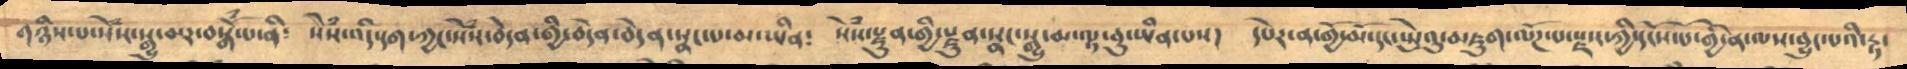གཉིས་པ་སེཾས་སྒྱུ་མར་བསྒོཾ་པ་ནི༴ སེཾས་འདི་དག་ཀྱང་སེཾས་བདེན་གྱི་བདེན་བདེན་སྣང་པ་མ་ཡིན༴ སེཾས་སྫུན་གྱི་སྫུན་སྣང་སྒྱུ་མ་ལྟ་བུ་ཡིན་པས། དཔེར་ན་གྱོ་མོ་དང་སྤེུའུ་མཇུག་ལོཌ་པ་སྫས་ཀྱི་དངོས་པོ་གྱི་ན་ལས་བྱུང་པའི་རྟ་
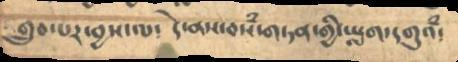གྲུབ་པར་བྱས་ལ༴ དེ་ནས་བསཾ་གཏན་གྱི་ཡླག་དགུའཾ༴
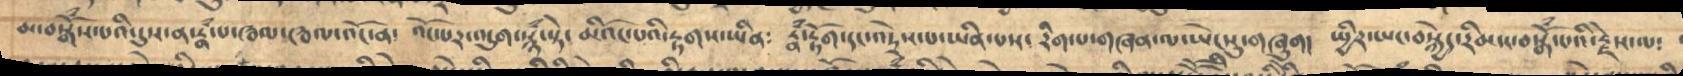མ་བསྒོཾས་པའི་དུས་ན་རྣཾ་པ་ཝལ་ཝལ་འོང་ན༴ འོང་པར་འདུག་སྙཾ་སྟེ་མིའོང་པའི་རྟགས་ཡིན༴ རྣཾ་རྟོག་དང་འདྲེས་པ་ཡིན་པས་རིག་པ་གཞན་ལ་ཡོངསུ་གཞུག། སྤྱིར་ཡང་བསྐྱེད་རིམས་བསྒོཾ་པའི་རྗེས་ལ༴
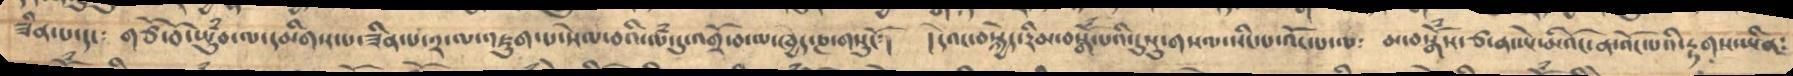ཟིན་པ་དང༴ གཙོ་བོ་ཡུཾབ་ལ་དམིགས་པ་ཟིན་པ་༢་ལ་འཇུག་པ་སེལ་བའི་ལཾ་དུ་འགྲོ་བ་ལ་ཁྱད་ཎ་གསུངོ༴། །དེའང་བསྐྱེད་རིམ་བསྒོཾ་པའི་དུསུ་གསལ་སིང་པ་འོང་པ་ལ༴ མ་བསྒོཾས་ཙ་ན་ཡེ་མིའོང་ན་འོང་པའི་རྟགས་ཡིན༴
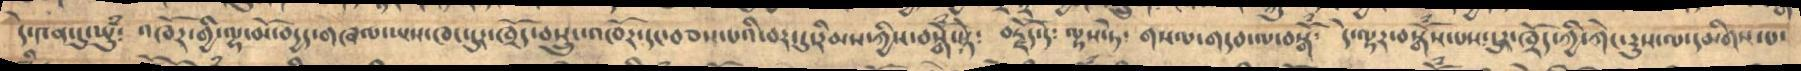དེ་༤ན་དུ་ཡུཾ༴ འཁོར་གྱི་ལྷ་མོ་བདྱད་གཞལ་ཡས་ཁང་དུར་ཁྲོད་བསྲུང་འཁོར་དང་བཅས་པའི་བར་དུ་རིམས་ཀྱིས་བསྒོཾ་སྟེ༴ བརྗོད་དེ༴ ལྟས་ཏེ༴ གསལ་གདབ་ལ་བསྒོཾ༴ དེ་ལྟར་བསྒོཾས་པས་དུར་ཁྲོད་ཀྱི་ཀེང་རུས་ལ་དམིགས་པ་
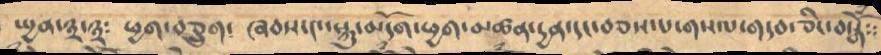སྤྱན་༣་༣༴ ཕྱག་བཅྲུག༴ ཞབས་༤་སྐུ་མདོག་ཕྱག་མཚན་དྱན་དང་བཅས་པ་གསལ་གདབ་ཅིང་བསྒོཾ༴༴
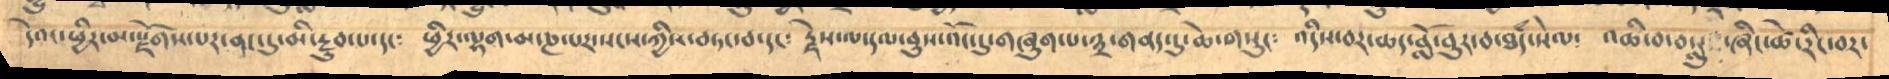དེའང་ཕྱིར་མ་སྫོགས་པར་ནང་དུ་མི་རྔུབ་པ་དང༴ ཕྱིར་ལྷག་མ་ཎ་པར་སངས་ཀྱིས་བཏང་བ་དང༴ རྗེས་ལ་དལ་བུས་འོང་དུ་གཞུག་པ་༣་གནད་དུ་ཆེ་གསུང༴ འདིས་བར་ཆད་བློ་བུར་བ་ཐཾད་སེལ༴ འཆི་བ་བསླུ་ཞིང་ཚེ་རིང་བར་
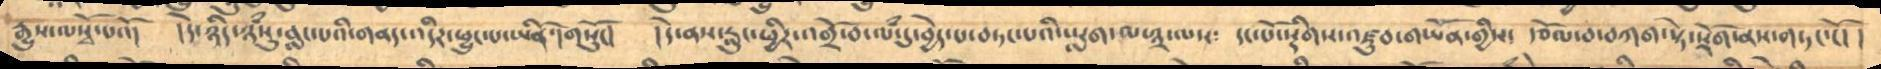རྒྱུས་ལསྭོ་པའོ། །དེ་ཉིད་ཉཾསུ་བླང་པའི་གནད་འདིར་ཕྱུང་པ་ཡིན་དགོསོུང། །དེ་ནས་རླུང་ཕྱིར་འགྲོ་བ་ལཾ་དུ་བྱེད་པ་བཏང་པའི་ཡླག་ལ་༣་ལས༴ དང་པོ་སྡིགས་འཛུབ་གཡོན་གྱིས༴ རྩོལ་བ་བཀག་སྟེ་སྡོག་ནས་གཏང་ངོ། །
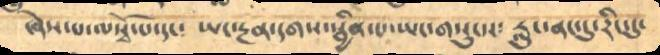ཞེས་པ་ལསྭོ་པ་དང༴ ཡང་རྔན་དགས་སྦྱིན་པ་ཡང་གསུངས༴ རླུང་ནང་དུ་རིང་དུ་
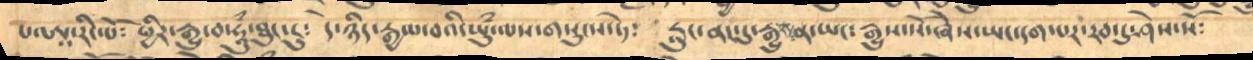པ་ཨཱ་རིང་པོ༴  ཕྱིར་རྒྱུ་བ་ཧཱུཾ་ཐུང་ངུ༴  དེ་ཉིད་རྒྱལ་བའི་ཡུཾ་ལས་གསུངས་ཏེ༴   རླུང་ནང་དུ་རྒྱུས་ན་ཡང༴  རྒྱུས་སོ་ཞེས་ཡང་དག་པར་རབ་དུ་ཤེས་སོ༴
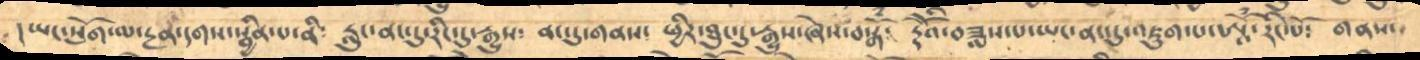།ཡང་སོུག་ལ་རྔན་དགས་སྦྱིན་པ་ནི༴ རླུང་ནང་དུ་རིང་དུ་རྒྱུས༴ ནང་དུ་གནས་ ཕྱིར་ཐུང་དུ་རྒྱུས་ཞེས་བསྒོཾ་ རྡོེའི་བཟླས་པ་ཡང་ནང་དུ་འཇུག་པ་ཨཱོཾ་རིང་པོ༴ གནས་
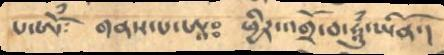པ་ཨོཾ༴ གནས་པ་ཨཱཿ   ཕྱིར་འགྲོ་བ་ཧཱུཾ་ཡིནོ་།
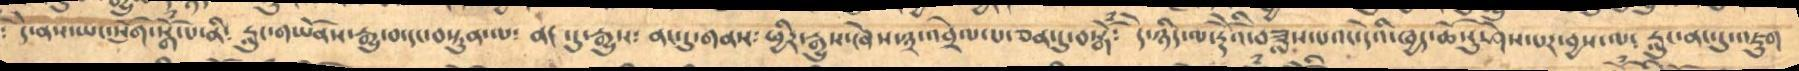དེ་ནས་ཡང་སོུག་སྒོཾ་པ་ནི༴ རླུང་གཡོནས་རྒྱུ་བ་དང་བསྟུན་ལ༴ ནང་དུ་རྒྱུས༴ ནང་དུ་གནས༴ ཕྱིར་རྒྱུས་ཞེས་༣་འབྲེལ་པ་ཅན་དུ་བསྒོཾ༴ དེ་ཉིད་ལ་རྡོེའི་བཟླས་པའང་དེའི་ཁྱད་ཆོསུ་ཤེས་པར་བྱས་ལ༴ རླུང་ནང་དུ་འཇུག
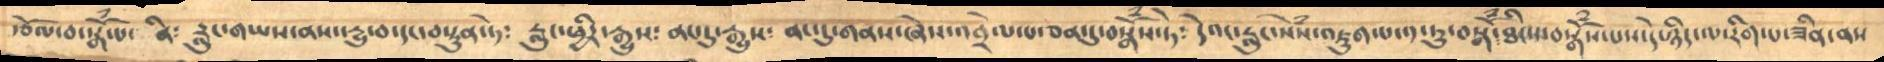རྩོལ་བ་སྒོཾ་པ་ ནི༴ རླུང་གཡས་ནས་རྱུ་བ་དང་བསྟུན་ཏེ༴ རླུང་ཕྱིར་རྒྱུས༴ ནང་དུ་རྒྱུས༴ ནང་དུ་གནས་ཞེས་འབྲེལ་པ་ཅན་དུ་བསྒོཾ་ཏེ༴ དེའང་རླུང་སེཾས་འཇུག་པ་༡་ཏུ་བསྒོཾ་ཐིངས་བསྒོཾས་པས་དེ་ཉིད་ལ་རིག་པ་ཟིན་ནས
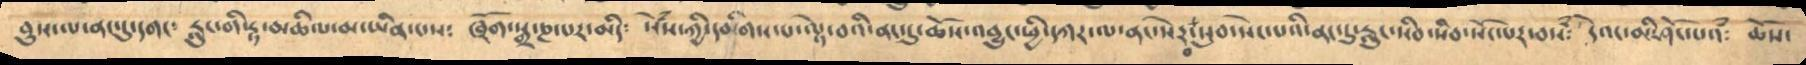བུས་ལ་ནང་དུ་དག༴ རླུང་གི་རྟ་མཆིལ་མ་ཡིན་པས༴ ཁྲོག་སྒྲ་ཎ་པར་མིད༴ སེཾས་ཀྱི་དམིགས་པ་ལྟེ་བའི་ནང་ུ་ཆོས་འབྱུང་ཕྱི་དཀར་ལ་ནང་སེར་སུབ་སེང་པའི་ནང་དུ་རླུང་སིབ་སིབ་སོང་པར་བས༴ དེའང་མི་ཤོང་པའཾ༴ ཆོས་
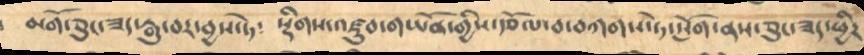མགོ་ཅུང་ཟད་རྒུ་བར་བྱས་ཏེ༴ སྡིགས་འཛུབ་གཡོན་གྱིས་རྩོལ་བ་བཀགས་ཏེ་སློག་ནས་ཅུང་ཟད་ཕྱིར
